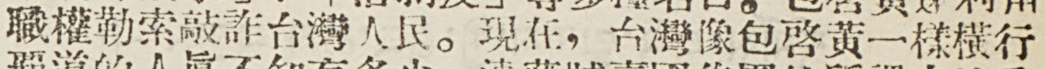職權勒索敲詐台灣人民。現在，台灣像包啓黃一樣橫行
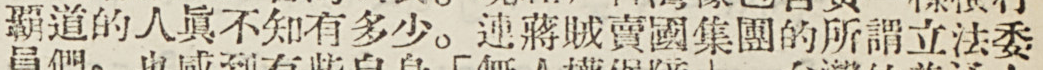霸道的人眞不知有多少。連蔣賊賣國集團的所謂立法委
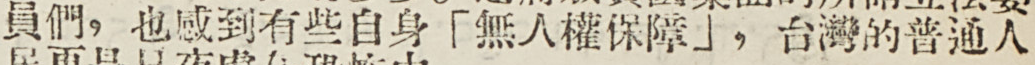員們，也感到有些自身「無人權保障」，台灣的普通人
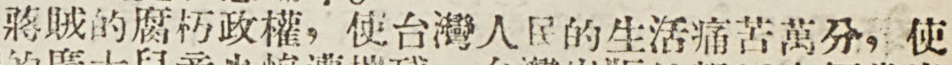蔣賊的腐朽政權，使台灣人民的生活痛苦萬分，使
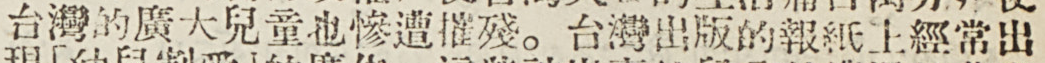台灣的廣大兒童也慘遭摧殘。台灣出版的報紙上經常出
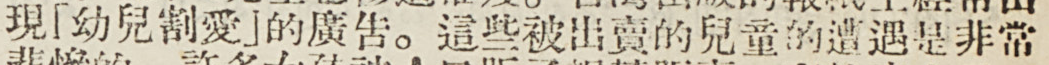現「幼兒割愛」的廣告。這些被出賣的兒童的遭遇是非常
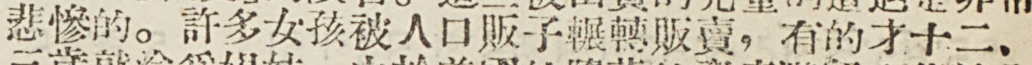悲慘的。許多女孩被人口販子輾轉販賣，有的才十二、
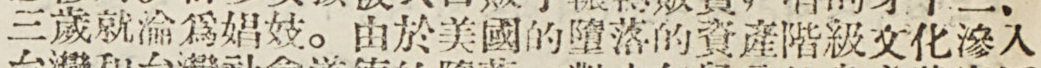三歲就淪爲娼妓。由於美國的墮落的資產階級文化滲入
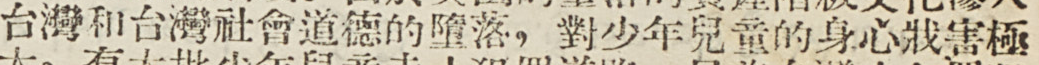台灣和台灣社會道德的墮落，對少年兒童的深信戕害極
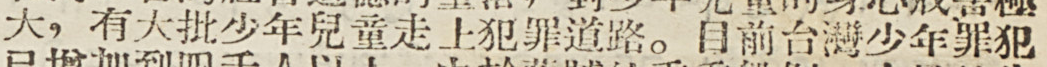大，有大批少年兒童走上犯罪道路。目前台灣少年罪犯
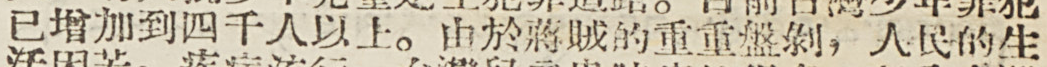已增加到四千人以上。由於蔣賊的重重盤剝，人民的生
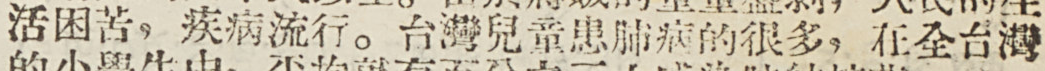活困苦，疾病流行。台灣兒童患肺病的很多，在全台灣
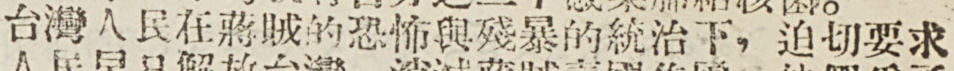台灣人民在蔣賊的恐怖與殘暴的統治下，迫切要求
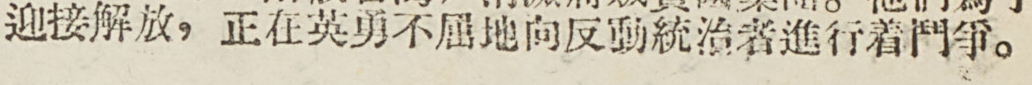迎接解放，正在英勇不屈地向反動統治者進行着鬥爭。
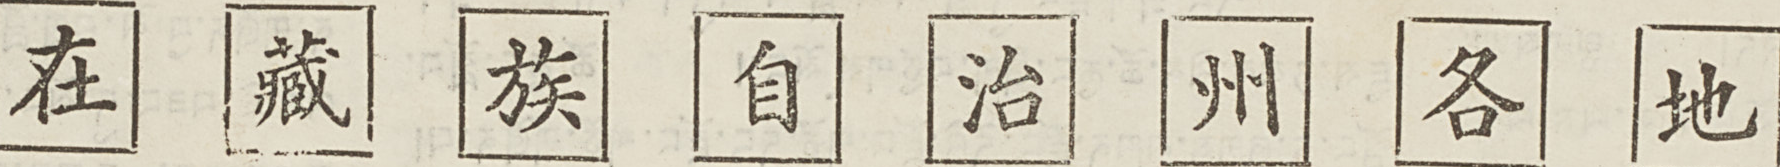在 藏 族 自 治 州 各 地
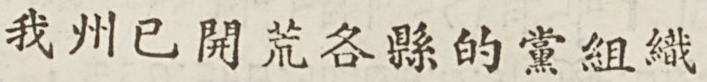我州已開荒各縣的黨組織
